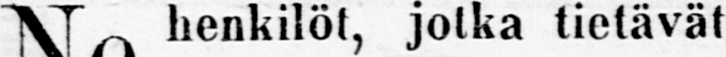Ne henkilöt, jotka tietävät
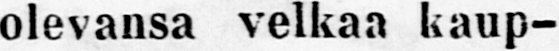olevansa velkaa kaup-
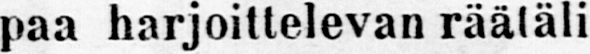paa harjoittelevan räätäli Aex.
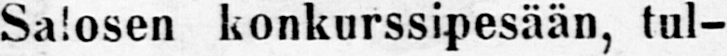Salosen konkurssipesään, tul-
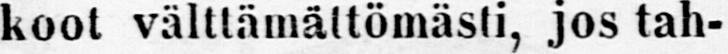koot välttämättömästi, jos tah-
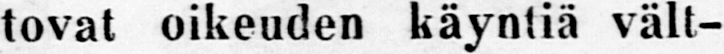tovat oikeuden käyntiä vält-
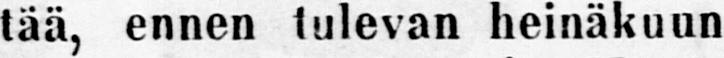tää, ennen tulevan heinäkuun
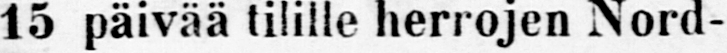15 päivää tilille herrojen Nord-
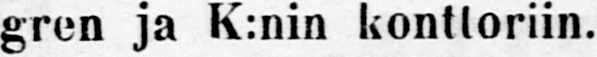gren ja K:nin konttoriin.
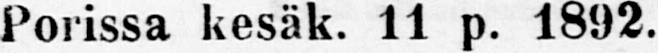Porissa kesäk. 11 p. 1892.
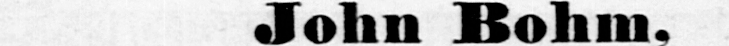John Bohm,
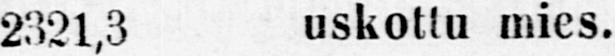2321,3 uskottu mies.
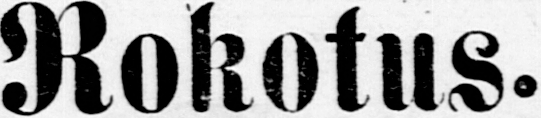Rokotus.
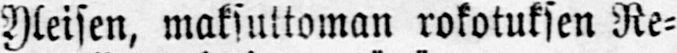Yleisen, maksuttoman rokotuksen Re-
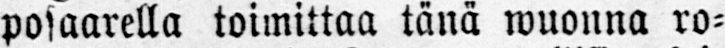posaarella toimittaa tänä wuonna ro-
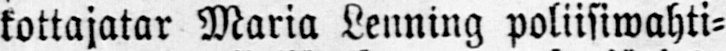kottajatar Maria Lenning poliisiwahti-
